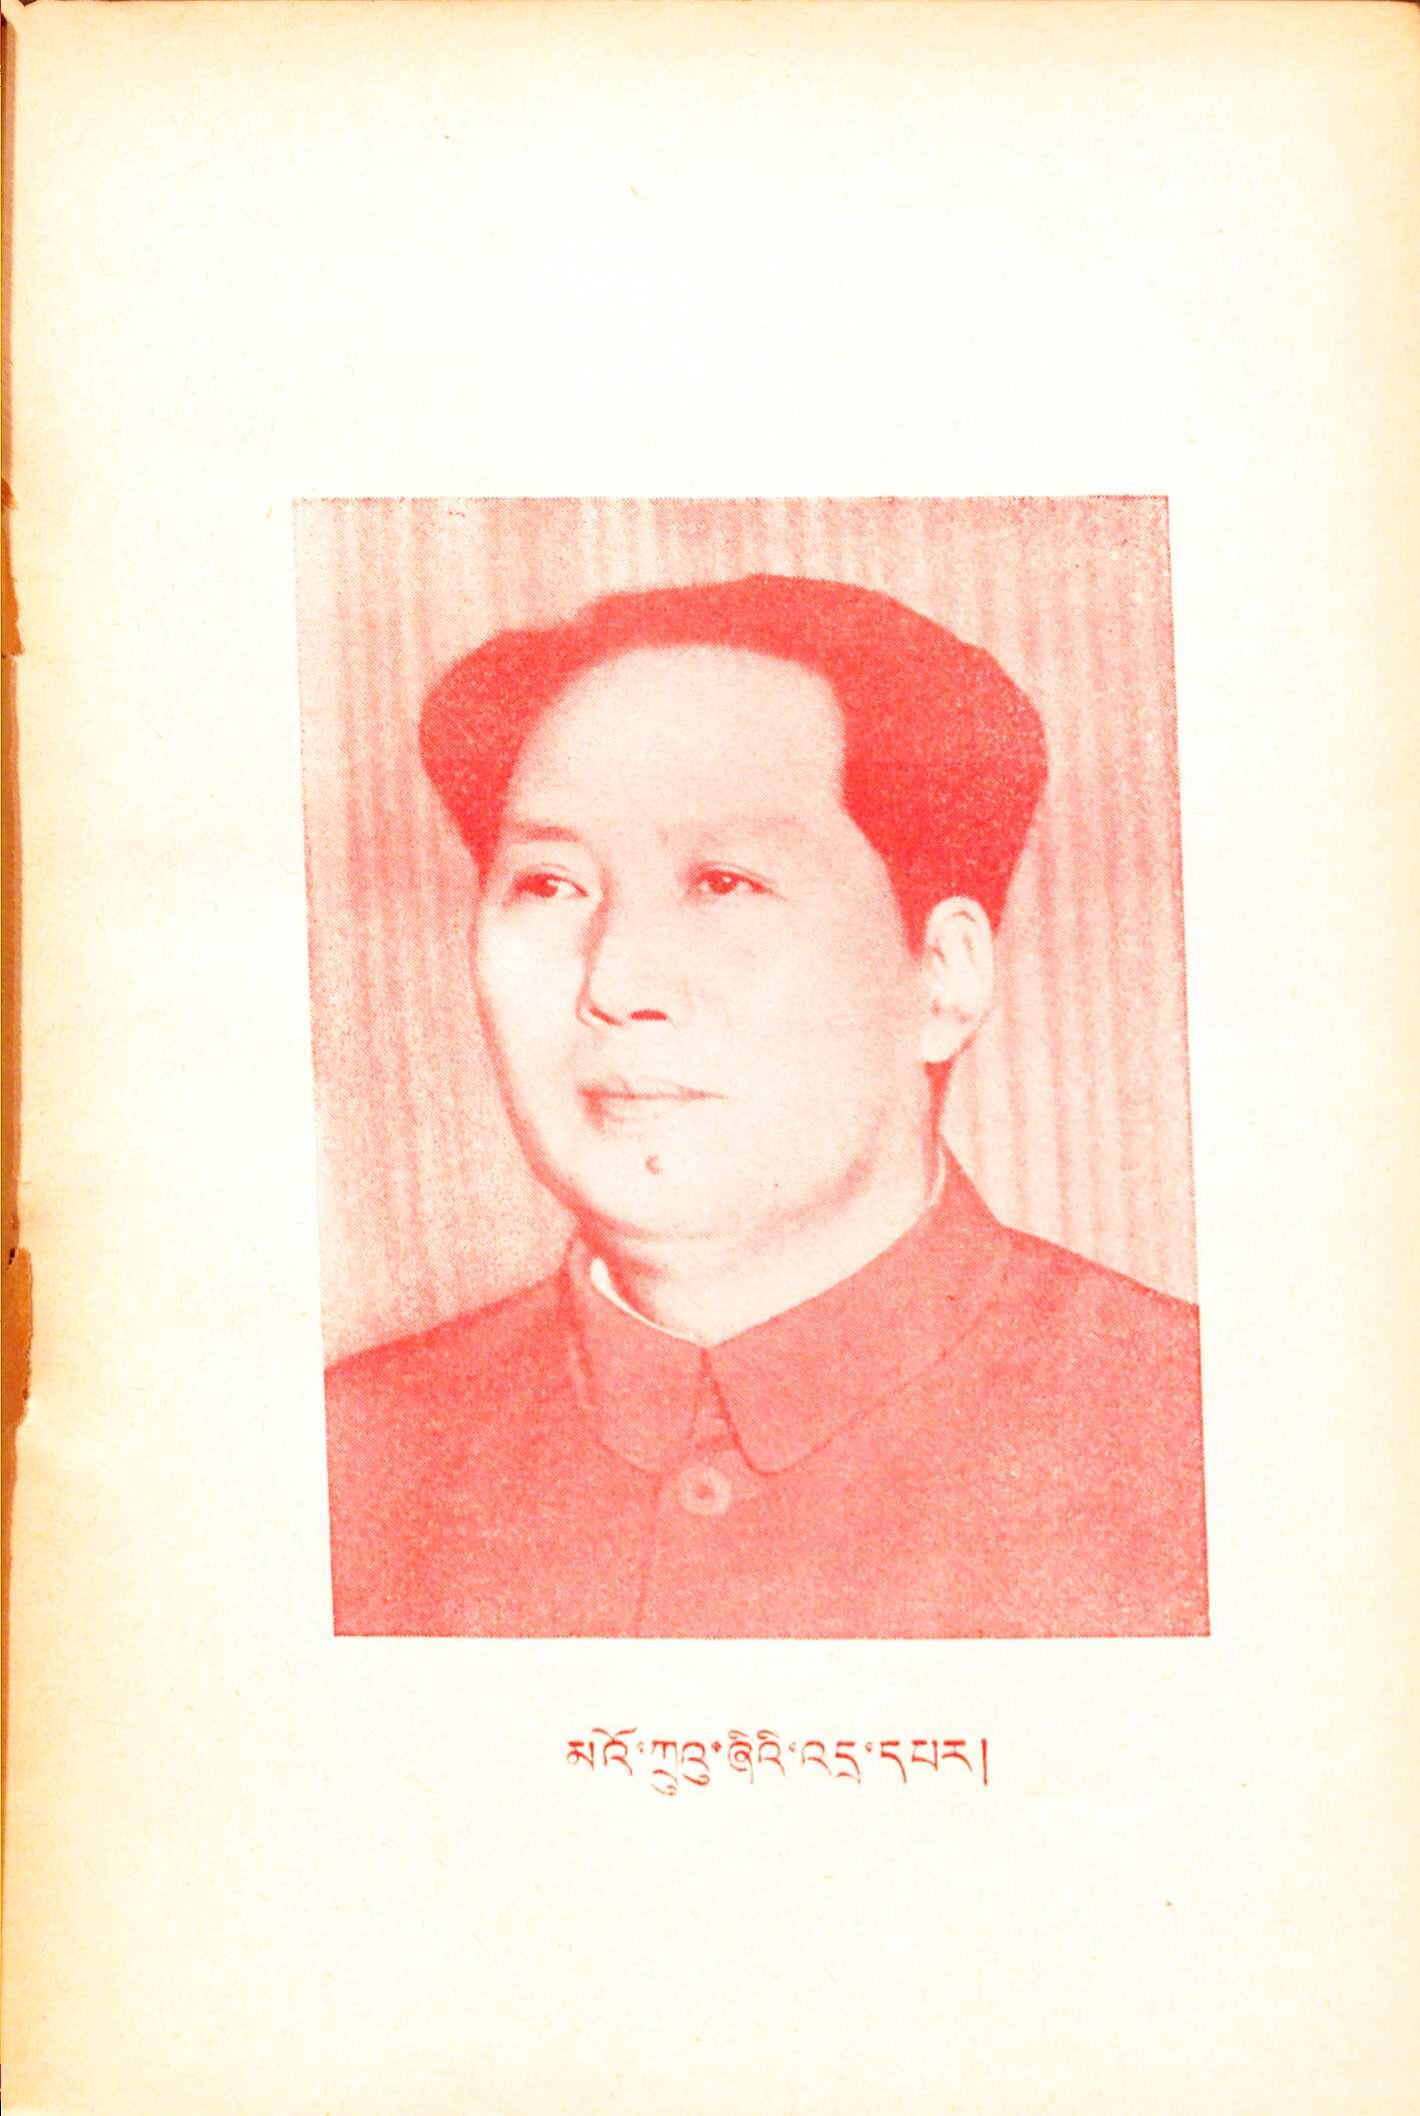མའོ་ཀྲུའུ་ཞིའི་འདྲ་དཔར།
